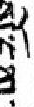སོ་དགུ་
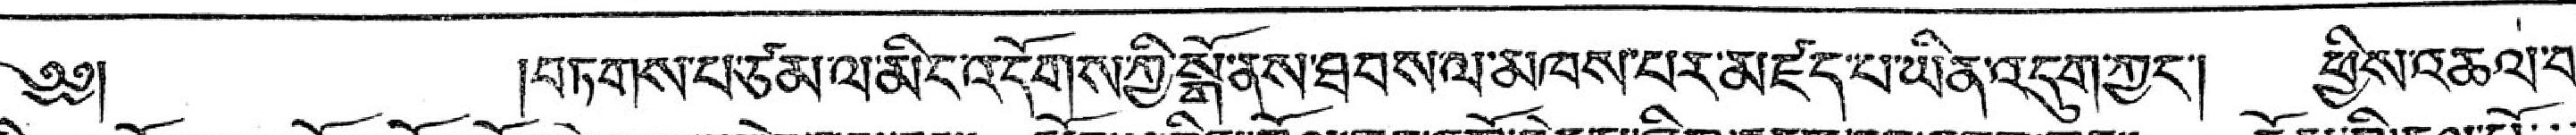༄༅།  །བཏགས་པ་ཙམ་ལ་མིང་འདོགས་གྱི་སྒོ་ནས་ཐབས་ལ་མཁས་པར་མཛད་པ་ཡིན་འདུག་ཀྱང་། ཕྱིས་འཆལ་བ་
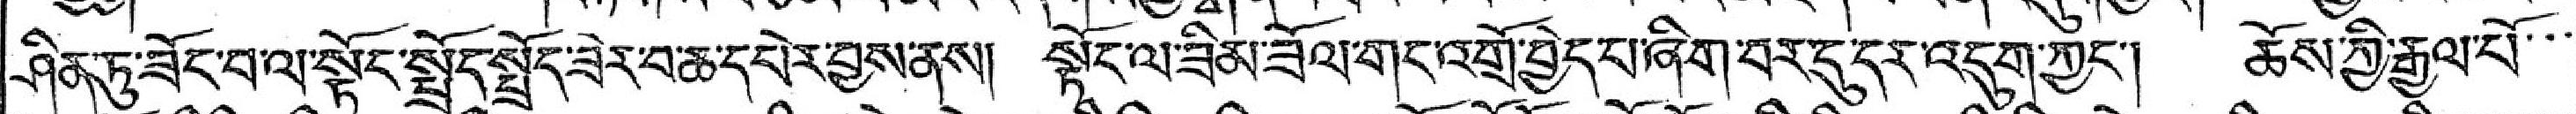ཤིན་ཏུ་ཟོང་བ་ལ་སྟོང་སྤྲོད་སྤྲོད་ཟེར་བ་ཆེ་དཔེར་བྱས་ནས། སྟོང་ལ་ཟིམ་ཟོལ་གང་འགྲོ་བྱེད་པ་ཞིག་བར་དུ་དར་འདུག་ཀྱང་། ཆོས་ཀྱི་རྒྱལ་པོ་་་
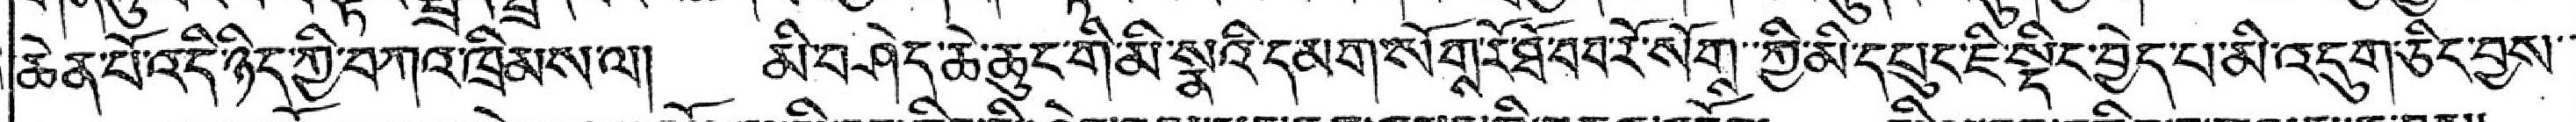ཆེན་པོ་འདི་ཉིད་ཀྱི་བཀའ་ཁྲིམས་ལ། མི་བཤེད་ཆེ་ཆུང་གི་མི་སྣའི་དམག་སོགས་རོ་ཐོ་བབ་རོ་སོགས་ཀྱི་མི་དཔུང་ཇི་སྡིང་བྱེད་པ་མི་འདུག་ཅིང་བྱས་་
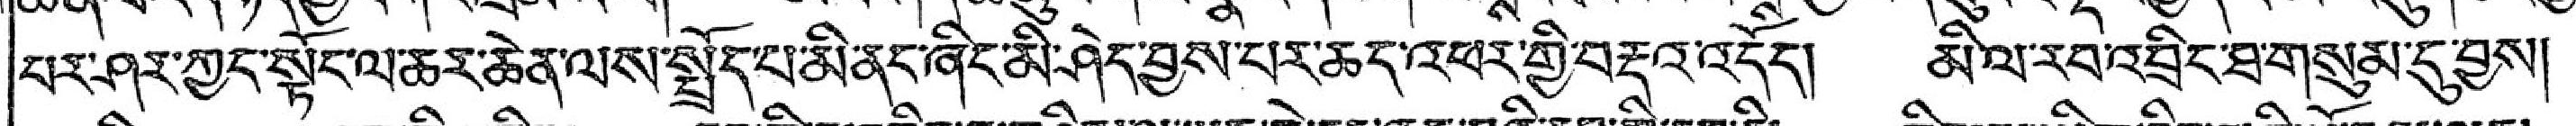པར་ཤར་ཀྱང་སྟོང་ལ་ཆར་ཆེན་ལས་སྤྲོད་པ་མི་ནང་ཞིང་མི་ཤེད་བྱས་པར་ཆད་འཕར་གྱི་བརྡའ་འདོད། མི་ལ་རབ་འབྲིང་ཐ་གསུམ་དུ་བྱས།
